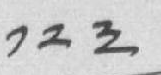༡༢༣
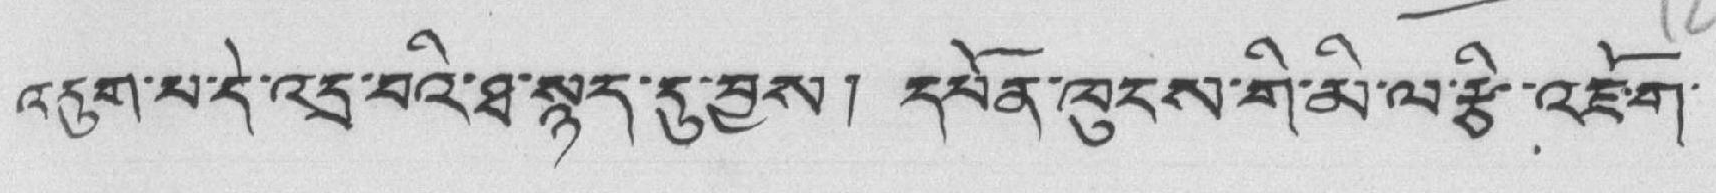འདུག་པ་དེ་འདྲ་བའི་ཐ་སྙད་དུ་བྱས། དཔོན་ཁུངས་གི་མི་ལ་རྩི་འཇོག་
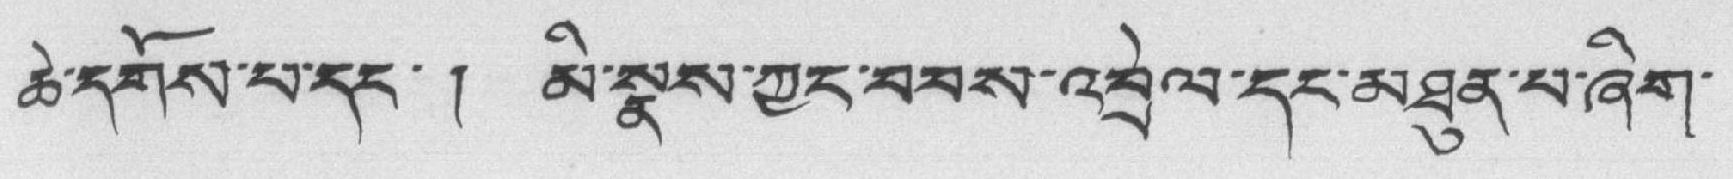ཆེ་དགོས་པ་དང་ ། མི་སྣས་ཀྱང་བབས་འབྲེལ་དང་མཐུན་པ་ཞིག་
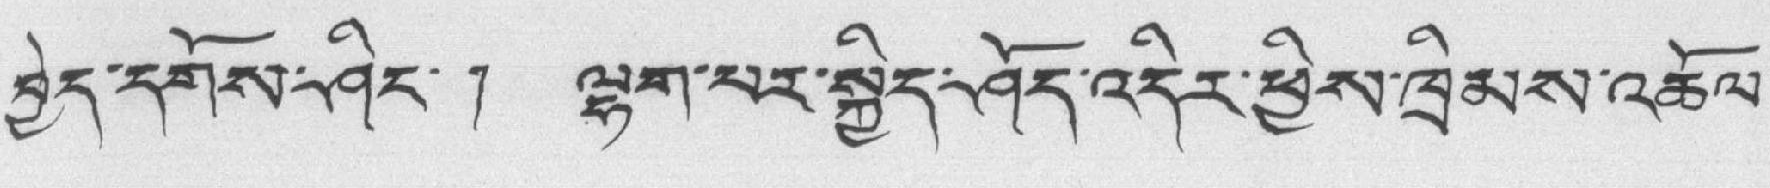བྱེད་དགོས་ཤིང་ ། ལྷག་པར་སྐྱིད་ཤོད་འདིར་ཕྱིས་ཁྲིམས་འཆོལ་
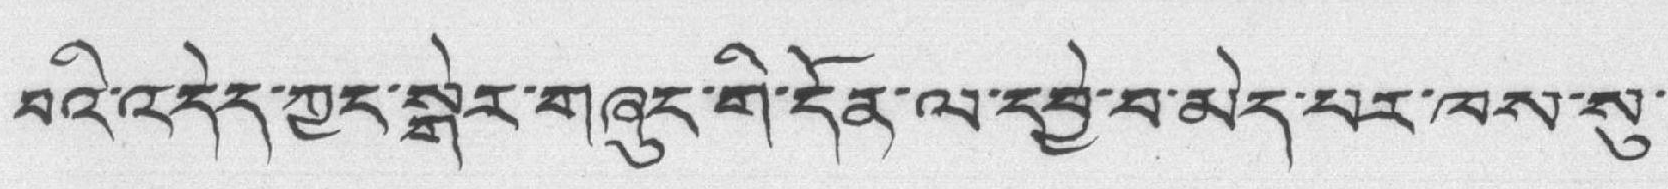བའི་འདེད་ཀྱང་སྒེར་གཞུང་གི་དོན་ལ་དབྱེ་བ་མེད་པར་ཁས་སུ་
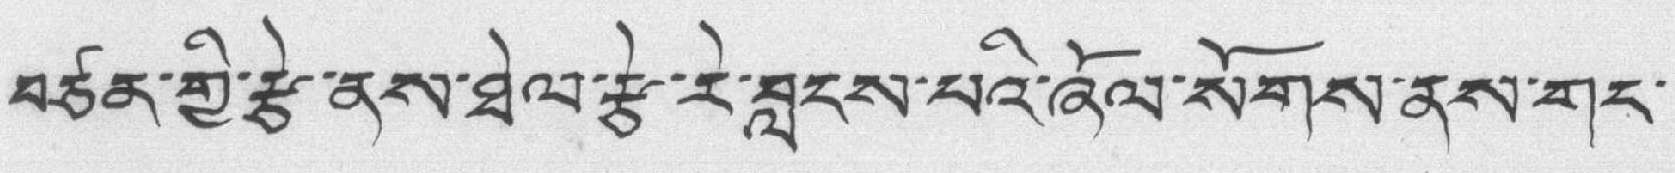བཙན་གྱི་རྩེ་ནས་ཐེལ་རྩེ་རེ་བླངས་པའི་ཞོལ་སོགས་ནས་གང་
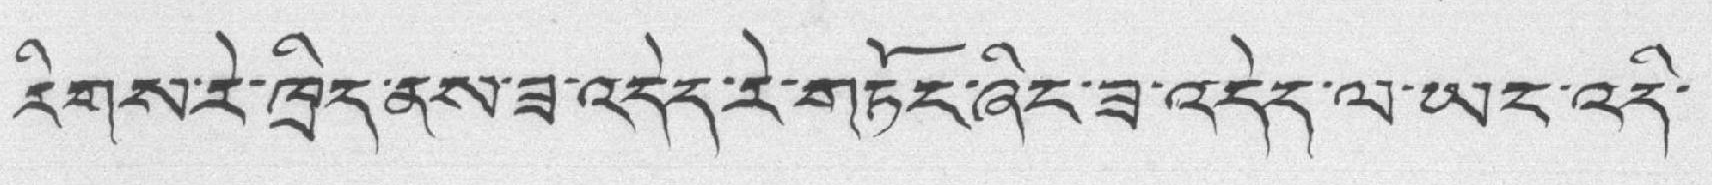རིགས་རེ་ཁྲིད་ནས་ཟ་འདེད་རེ་གཏོང་ཞིང་ཟ་འདེད་ལ་ཡང་འདི་
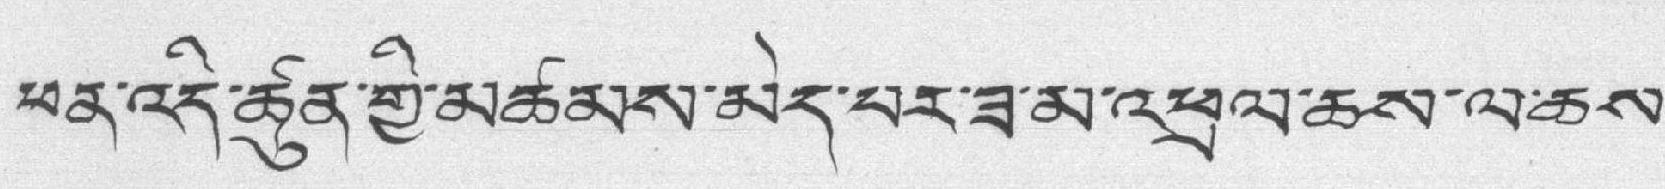ཕན་འདི་ཚུན་གྱི་མཚམས་མེད་པར་ཟ་མ་འཕྲལ་ཆས་ལ་ཆས་
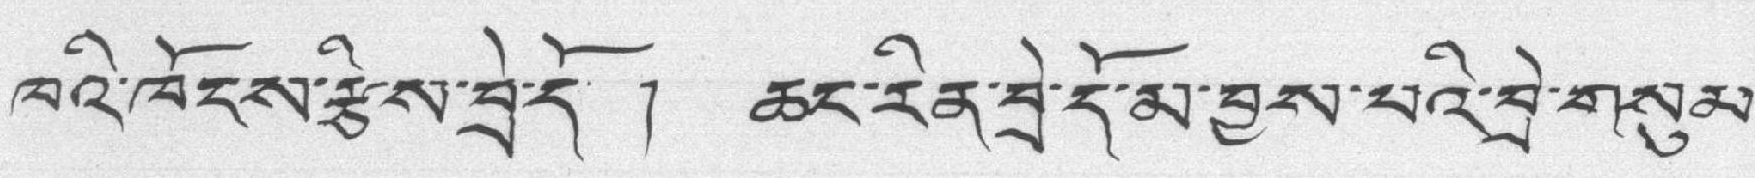ཁའི་ཁོངས་རྩིས་བྲེ་དོ ། ཆང་རིན་བྲེ་དོ་མ་བྱས་པའི་བྲེ་གསུམ་
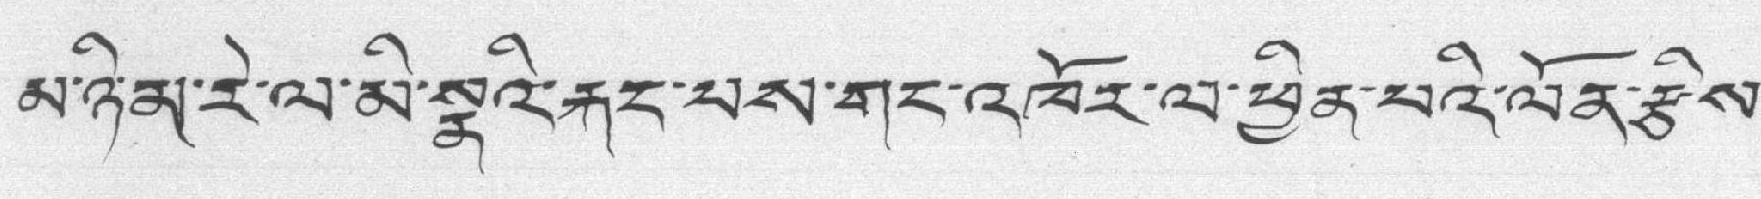མ་ཉི་མ་རེ་ལ་མི་སྣའི་རྐང་པས་གང་འཁོར་ལ་ཕྱིན་པའི་ལོན་རྩིས་
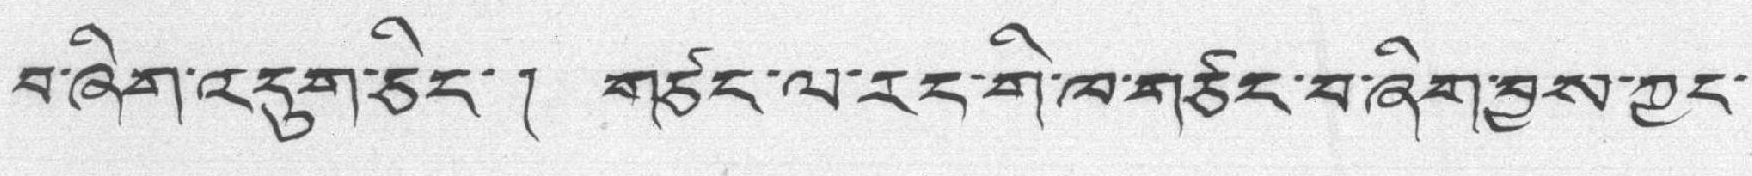བ་ཞིག་འདུག་ཅིང་ ། གཙང་ལ་རང་གི་ཁ་གཙང་བ་ཞིག་བྱས་ཀྱང་
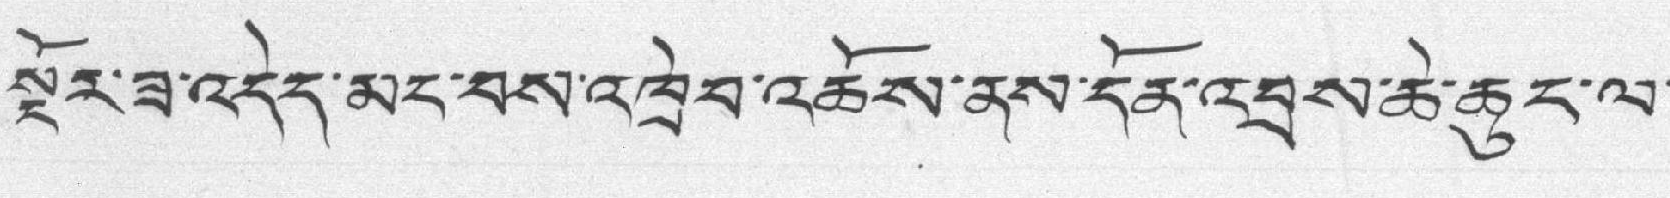སྔོར་ཟ་འདེད་མང་བས་འཁྲེབ་འཆོས་ནས་དོན་འབྲས་ཆེ་ཆུང་ལ་
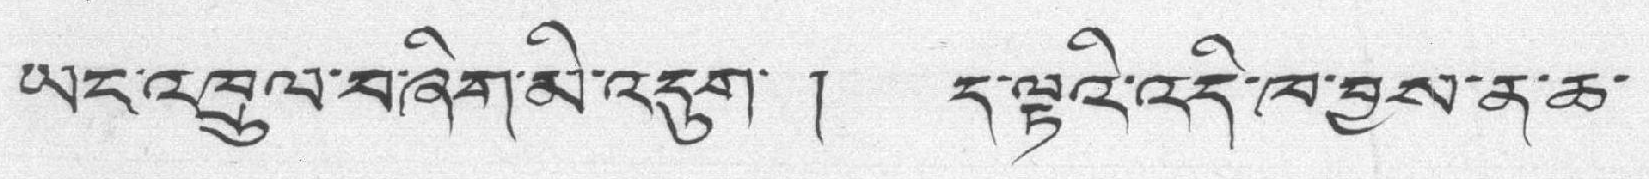ཡང་འཁྲུལ་བ་ཞིག་མི་འདུག་ ། ད་ལྟའི་འདི་ཁ་བྱས་ན་ཆ་
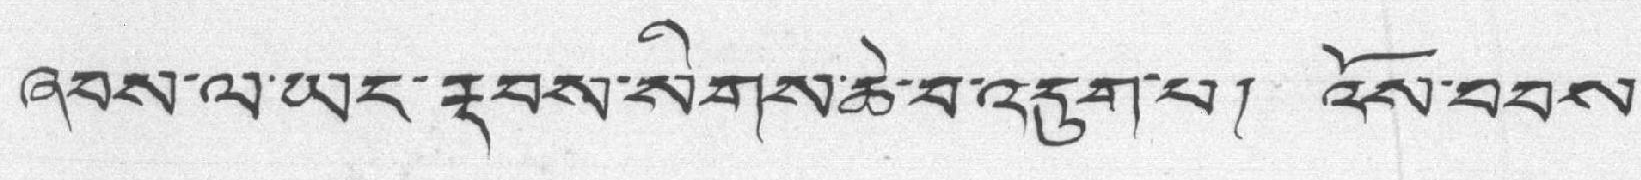ཞབས་ལ་ཡང་རྡབས་སོགས་ཆེ་བ་འདུག་པ། འོས་བབས་
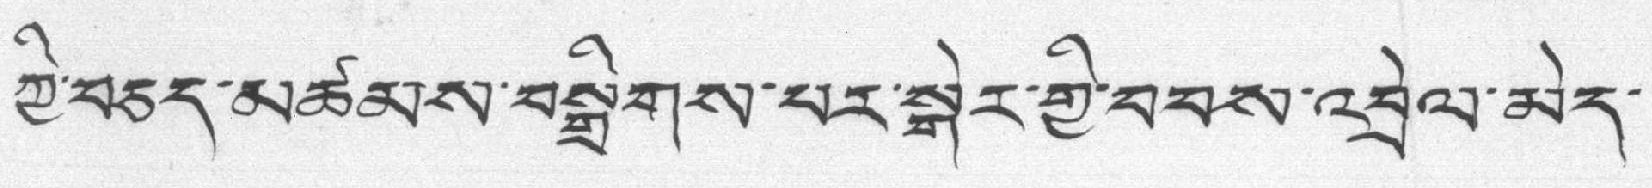ཀྱི་བཅད་མཚམས་བསྒྲིགས་པར་སྒེར་གྱི་བབས་འབྲེལ་མེད་
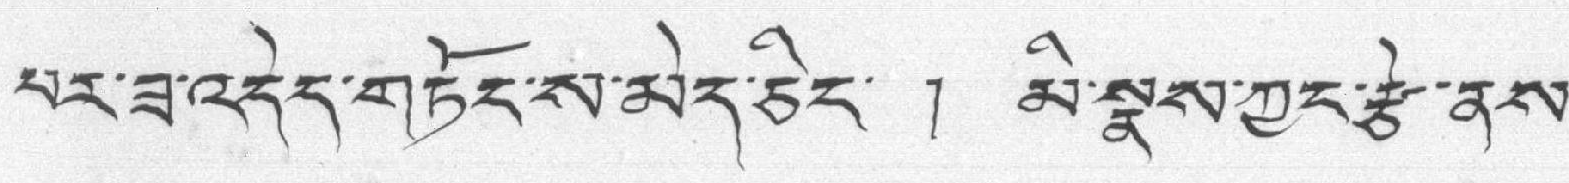པར་ཟ་འདེད་གཏོང་ས་མེད་ཅིང་ ། མ་སྣས་ཀྱང་རྩེ་ནས་
